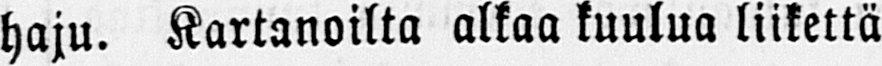haju. Kartanoilta alkaa kuulua liikettä
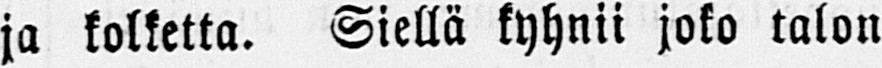ja kolketta. Siellä kyhnii joko talon
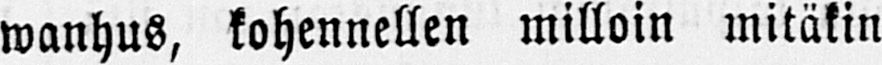wanhus, kohennellen milloin mitäkin
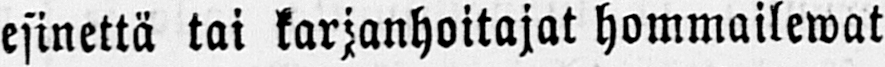esinettä tai karjanhoitajat hommailewat
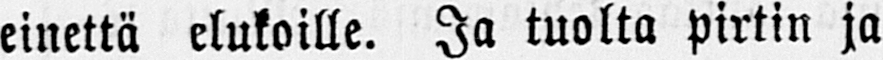einettä elukoille. Ja tuolta pirtin ja
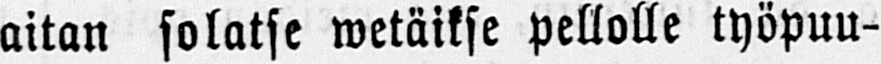aitan solatse wetäikse pellolle työpuu-
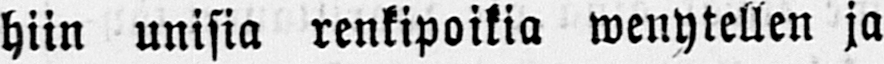hiin unisia renkipoikia wenytellen ja
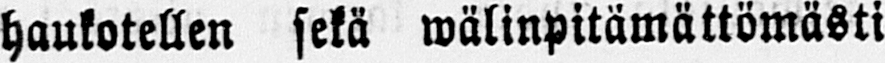haukotellen sekä wälinpitämättömästi
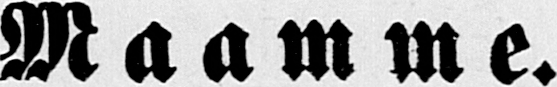Maamme.
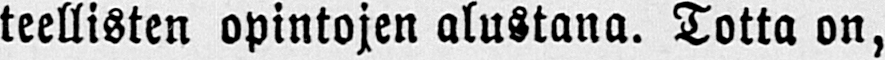teellisten opintojen alustana. Totta on,
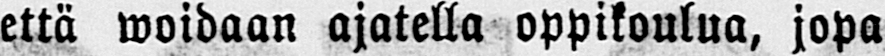että woidaan ajatella oppikoulua, jopa
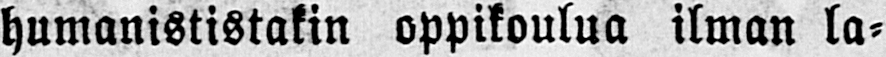humanististakin oppikoulua ilman la-
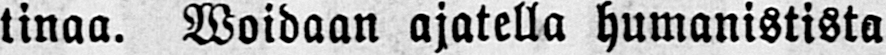tinaa. Woidaan ajatella humanistista
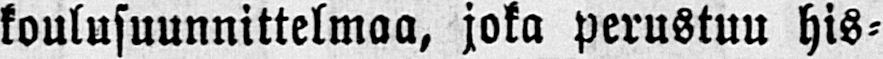koulusuunnittelmaa, joka perustuu his-
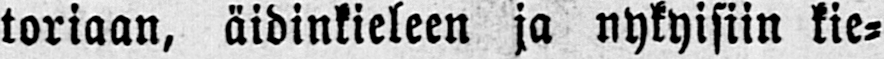toriaan, äidinkieleen ja nykyisiin kie-
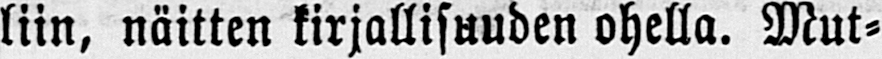liin, näitten kirjallisuuden ohella. Mut-
